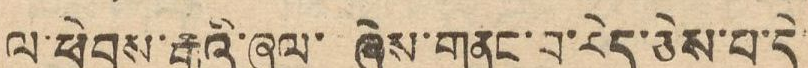ལ་ཕེབས་རྒྱུའི་ཞལ་ཞེས་གནང་བ་རེད་ཅེས་བ་དེ
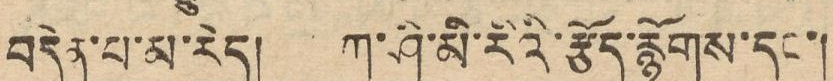བདེན་པ་མ་རེད། ཀ་ཤི་མི་རིའི་རྩོད་རྙོགས་དང་།
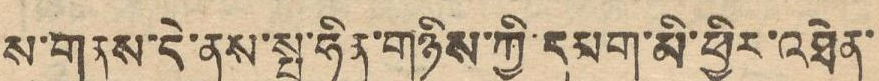ས་གནས་དེ་ནས་སྤ་ཧིན་གཉིས་ཀྱི་དམག་མི་ཕྱིར་འཐེན་
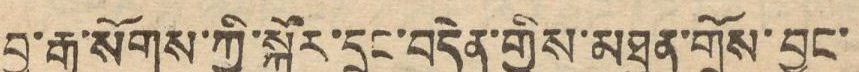བྱ་རྒྱུ་སོགས་ཀྱི་སྐོར་དྲང་བདེན་གྱིས་མཐུན་གྲོས་བྱུང་
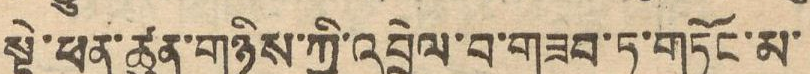སྟེ་ཕན་ཚུན་གཉིས་ཀྱི་འབྲེལ་བ་གཟབ་ཏུ་གཏོང་མ་
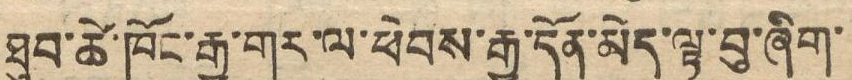ཐུབ་ཚེ་ཁོང་རྒྱ་གར་ལ་ཕེབས་རྒྱུ་དོན་མེད་ལྟ་བུ་ཞིག་
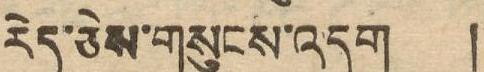རེད་ཅེས་གསུངས་འདུག །
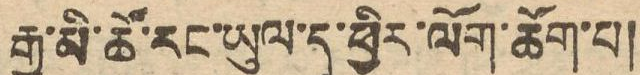རྒྱ་མི་ཚོ་རང་ཡུལ་དུ་ཕྱིར་ལོག་ཆོག་པ།
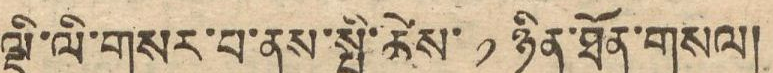ལྡི་ལི་གསར་བ་ནས་སྤྱི་ཚེས་ ༡ ཉིན་ཐོན་གསལ།
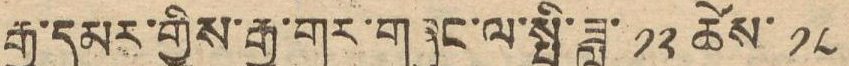རྒྱ་དམར་གྱིས་རྒྱ་གར་གཞུང་ལ་སྤྱི་ཟླ་ ༡༢ ཚེས་ ༡༨
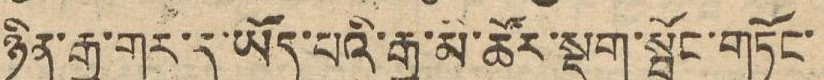ཉིན་རྒྱ་གར་དུ་ཡོད་པའི་རྒྱ་མི་ཚོར་སྡུག་སྦྱོང་གཏོང་
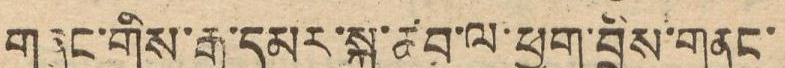གཞུང་གིས་རྒྱ་དམར་སྐུ་ཚབ་ལ་ཕྱག་བྲིས་གནང་
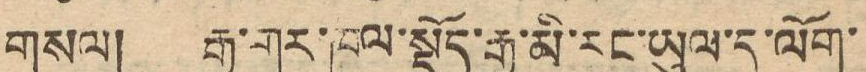གསལ། རྒྱ་གར་ཁུལ་སྡོད་རྒྱ་མི་རང་ཡུལ་དུ་ལོག་
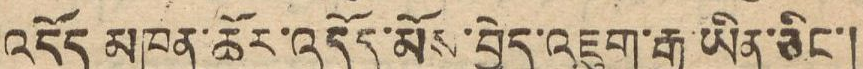འདོད མཁན་ཆོར་འདོད་མོས་བྱེད་འཇུག་རྒྱ་ཡིན་ཅིང་།
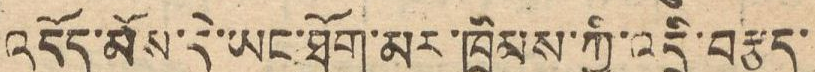འདོད་མོས་དེ་ཡང་ཐོག་མར་ཁྲིམས་ཀྱི་འདྲི་བརྩད་
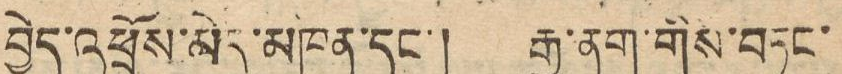བྱེད་འཕྲོས་མེད་མཁན་དང་། རྒྱ་ནག་གིས་བཏང་
